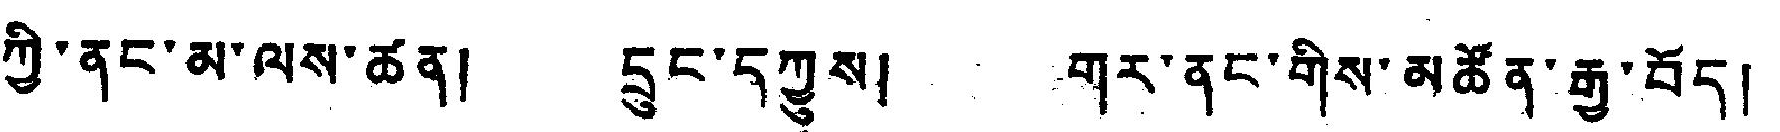ཀྱི་ནང་མ་ལས་ཚན། དྲུང་དཀྱུས། གར་ནང་གིས་མཚོན་རྒྱ་བོད།
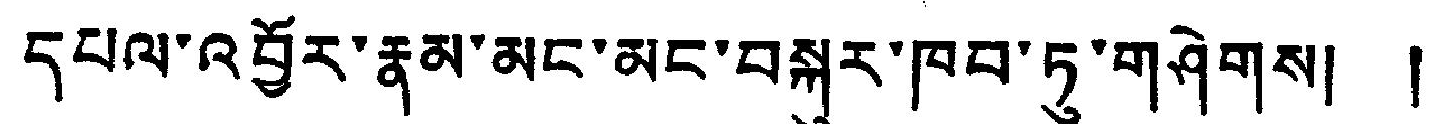དཔ༷ལ་འབྱོར་རྣམ་མ༷ང་མ༷ང་བསྐུར་ཁབ་ཏུ་གཤེགས། །
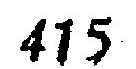415
